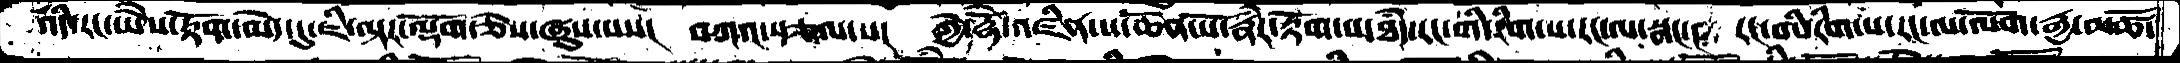འདི་རང་ཡཻས་རྟོག་མེད་དུ་ཇི་ལྟར་ལྡོག་ཅེས་ཞུས་པས།  བཀའ་སྩལ་པ།  ཀྱེ་རྡོེ་འཛིན་པ་ཆེན་པོ་རྣཾར་རྟོག་པ་ཐདཾ་རང་གི་རིག་པ་རང་ལ་སྣང་།  རང་གི་རིག་པ་རང་ལ་ལོག་རྒྱ་མཚོ་
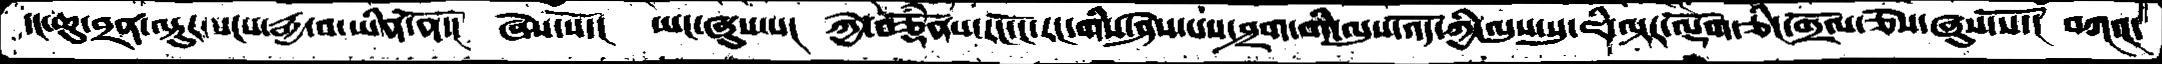དང་ཆུ་བྲན་ལྟུར་སངས་རྒྱ་བ་ཡིན་ནོ་།  ཞེས་སོ་།  ཡང་ཞུས་པ།  ཀྱེ་བཅྡོཾནས་རང་ངོ་རང་གིས་ཤེས་པས་ཤྲག་གི་ལུས་འོད་ཀྱི་ལུས་སུ་ཇི་ལྟར་ལྡོག་ཅིང་གྲོལ་ཅེས་ཞུས་སོ་།  བཀའ་
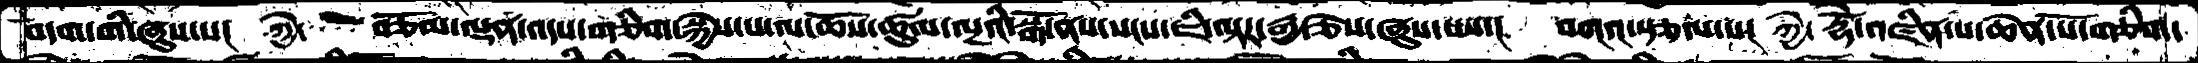བདག་གི་ཞུས་པ།  ཀྱེ་  བཅོམ་ལྡན་འདས་གཅིག་སྐྱེས་པ་ལ་ཆོས་ཚུལ་ལྔའི་སྒོ་ནས་སངས་ཇི་ལྟར་རྒྱ་ཅེས་ཞུས་པས།  བཀའ་སྩལ་པ།  ཀྱེ་   རྡོེ་འཛིན་པ་ཆེན་པོ་གཅིག་
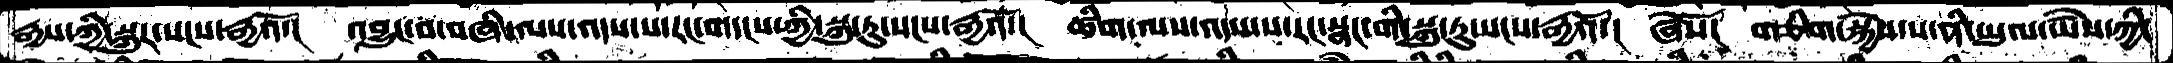རྒྱས་ཀྱི་སྐུར་སངས་རྒྱའོ་།  འབྱུང་བ་བཞི་ལས་འདས་པ་རང་གདངས་ཀྱི་སྐུ་རུ་སངས་རྒྱའོ་།  ཚིག་ལས་འདས་པ་རང་སྣང་གི་སྐུ་རུ་སངས་རྒྱའོ་།  ཞེསོ།  གཅིག་སྐྱེས་པ་ནི་ཡུལ་ཡཻས་ཀྱི་
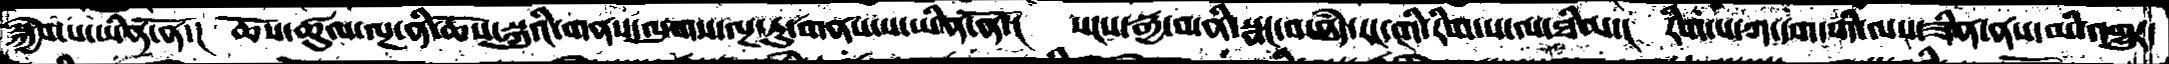སྐྱེས་པ་ཡིན་ནོ་།  ཆོས་ཚུལ་ལྔ་ནི་ཆོས་སྐུའི་གནས་ལུགས་ལྔ་རུ་གནས་པ་ཡིན་ནོ་།  སངས་རྒྱ་བ་ནི་སྣང་བ་ཐདཾ་རང་གི་རིག་པ་ལ་ཐིམ་།  རིག་པ་ཀ་དག་གི་ལས་ཟིན་ནས་མི་འགྱུར་
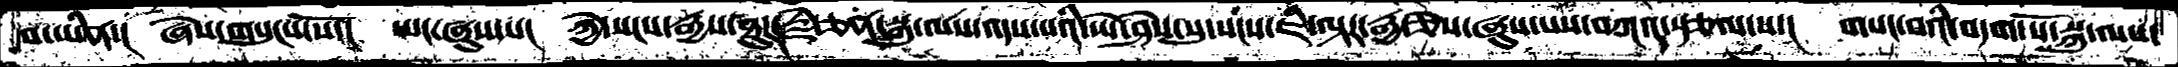བ་ཡིན་།  ཞེས་གསུངས་སོ་།  ཡང་ཞུས་པ།  ཀྱེ་སངས་རྒྱས་ཐུཌ་རྗེ་ཅན་སྐུ་ལས་འདས་པའི་ཡེ་ཤེས་སུ་སངས་ཇི་ལྟར་རྒྱ་ཅེས་ཞུས་པས་བཀའ་སྩལ་པ་།  གསང་བའི་བདག་པོ་སྐུ་ལས་
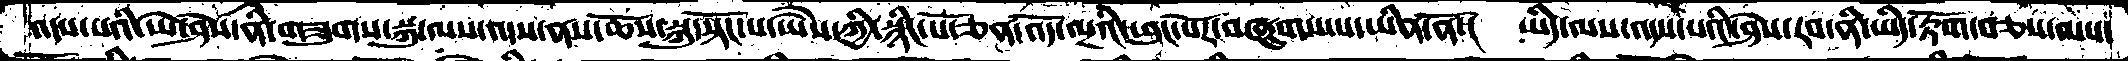འདས་པའི་ཡེ་ཤེས་ནི་གཟུགས་སྐུ་ལས་འདས་ནས་ཆོས་སྐུ་སྟོང་པ་ཡཻས་ཀྱི་སྙིང་པོ་ཅན་འོད་ལྔའི་ཕུང་པོར་བཞུགས་པ་ཡིན་ནོ་།  ཡིད་ལས་འདས་པའི་ཤེས་རབ་ནི་ཡིད་རྟོག་བཅས་ལས་
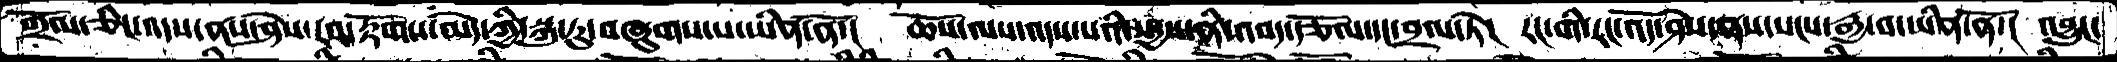གྲོལ་ཅིང་འདས་ནས་ཤེས་རབ་རྟོགས་མེད་ཀྱི་སྐུ་རུ་བཞུགས་པ་ཡིན་ནོ་།  ཆོས་ལས་འདས་པའི་སདྱས་ནི་འབད་རྩོལ་དང་བྲལ་ཏེ།  རང་གི་རང་འོད་ཤེས་ནས་སངས་རྒྱ་བ་ཡིན་ནོ་།  འབྱུང་
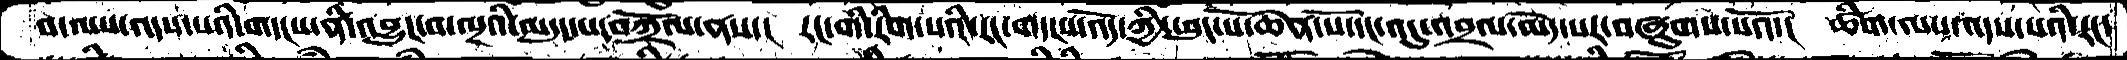བ་ལས་འདས་པའི་གདངས་ནི་འབྱུང་བ་ལྔའི་མདུད་པ་བཀྲོལ་ནས་།  རང་གི་རིག་པའི་རང་གདངས་འོད་ཀྱི་ཕུང་པོ་ཆེན་པོ་དང་འདུ་འབྲལ་མེད་པར་བཞུགས་པའོ་།  ཚིག་ལས་འདས་པའི་རང་
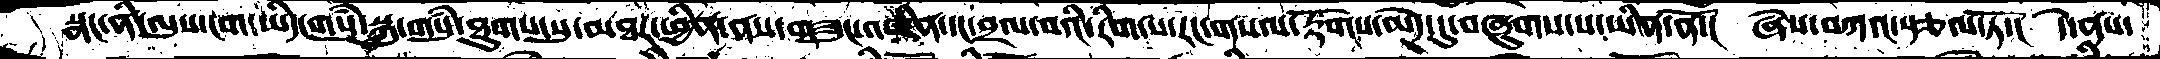སྣང་ནི་ལུས་ངག་ཡིད་གསུཾ་སྐུ་གསུཾ་ཐུགས་སུ་མཐར་ཕྱིན་ནས་གཟུང་འཛིན་དང་བྲལ་བའི་རིག་པ་རང་གསལ་རྟོགས་མེད་དུ་བཞུགས་པ་ཡིན་ནོ་།  ཞེས་བཀའ་སྩལ་ཏོ་།  དེ་ནས་
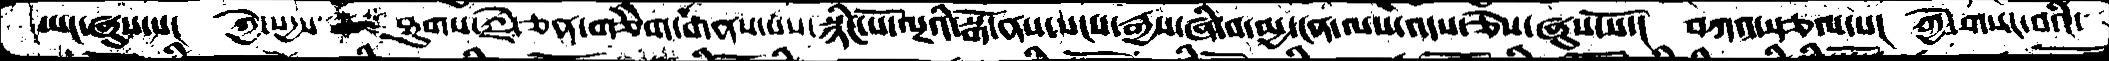ཡང་ཞུས་པ།  ཀྱེ་སདྱས་ཐུགས་རྗེ་ཅན་གཅིག་གནས་པས་སྙིང་པོ་ལྔའི་སྒོ་ནས་སངས་རྒྱས་ཞི་བ་མྱ་ངན་ལས་འདས་ཅེས་ཞུས་སོ་།  བཀའ་སྩལ་པ།  ཀྱེ་གསང་བའི་
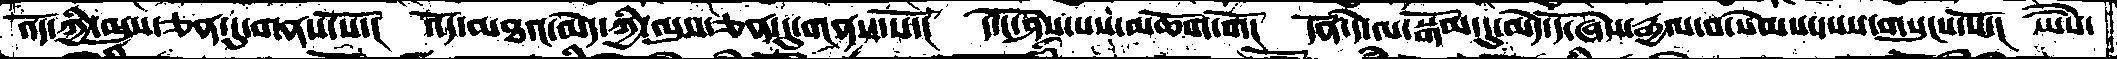འོད་ཀྱི་ལུས་ཅན་དུ་གནས་སོ་།  འོད་མཐའ་མེད་ཀྱི་ལུས་ཅན་དུ་གནས་སོ་།  དེ་ངོ་ཤེས་པས་མཆོག་གོ།  དོན་དེ་ལ་སྒོམ་དུ་མེད་དོ་ཞེས་རྒྱལ་བ་སེམས་པས་གསུངས་སོ་།  ཡཻས་
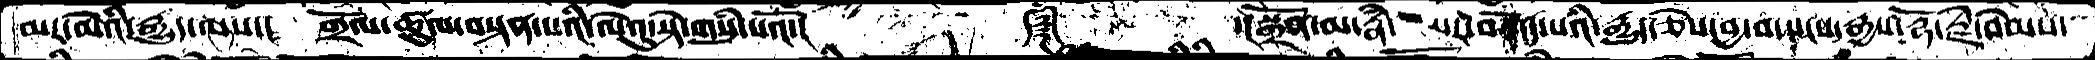མར་མེའི་རྒྱུད་ལས་།  གྲོལ་ཚུལ་བསྟན་པའི་ལེའུ་སྟེ་གསུཾ་པའོ་།    ༼༈༽    ་།སྒྲོན་མ་རྣཾས་པར་བསྟོད་པའི་རྒྱུད་ཅེས་བྱ་བ་སངས་རྒྱས་རྡོ་རྗེ་སེམས་
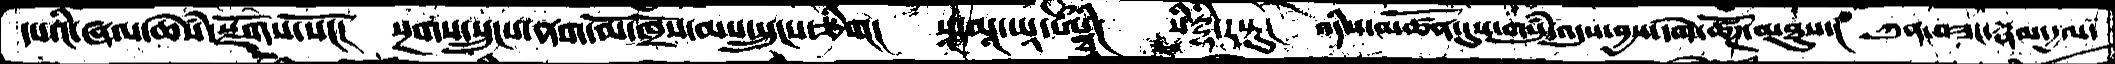དཔའི་ཞལ་ཆེསཾ་སྫོགས་སོ།།།  སྔགས་སྲུངས་ནག་མོ་ཁྲོས་མས་སྲུངས་ཅིག།   སཱ་མཱ་ཡཱ་ཨྠི།  སིཌྷི་རསྟུ།  འདིས་མཚོན་དུས་གསུཾ་འདུས་བྱས་དགེ་ཚོཌ་མཐུས་།  ཀུན་བཟང་རྣམ་དྱལ་
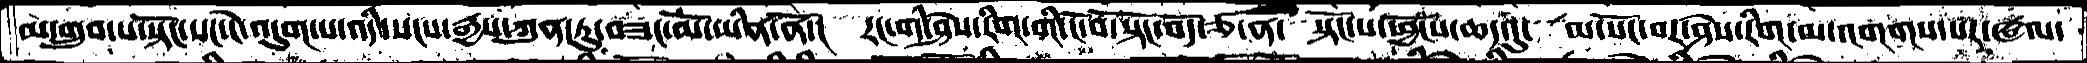མ་གྲུབ་པ་སྟོང་སང་ངེ་འདུག་པ་འདི་སངས་རྒྱས་ཀུན་ཏུ་བཟང་མོ་ཡིན་ནོ་།  རང་གི་ཤེས་རིག་གི་ངོ་བོ་སྟོང་བོད་ཙ་ན་  སྟོང་པ་ཕྱོངས་ཆད་དུ་  མ་སོང་བར་ཤེས་རིག་མ་འགགས་པར་ཝལ་
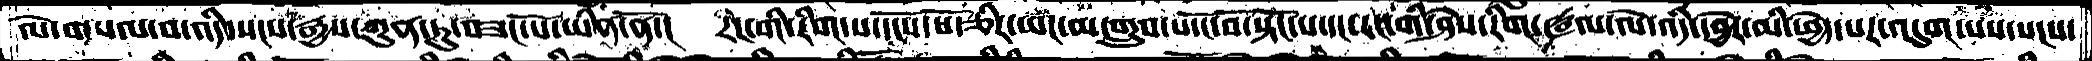ལེ་གསལ་བ་འདི་སངས་རྒྱས་ཀུན་ཏུ་བཟང་པོ་ཡིན་ནོ་།  རང་གི་རིག་པ་དངོས་པོ་ཅིར་ཡང་མ་གྲུབ་པ་ངོ་བོ་སྟོང་པ་དང་རང་གི་ཤེས་རིག་ཝལ་ལེ་འདི་དབྱེར་མི་ཕྱེད་པར་འདུག་པས་སངས་
